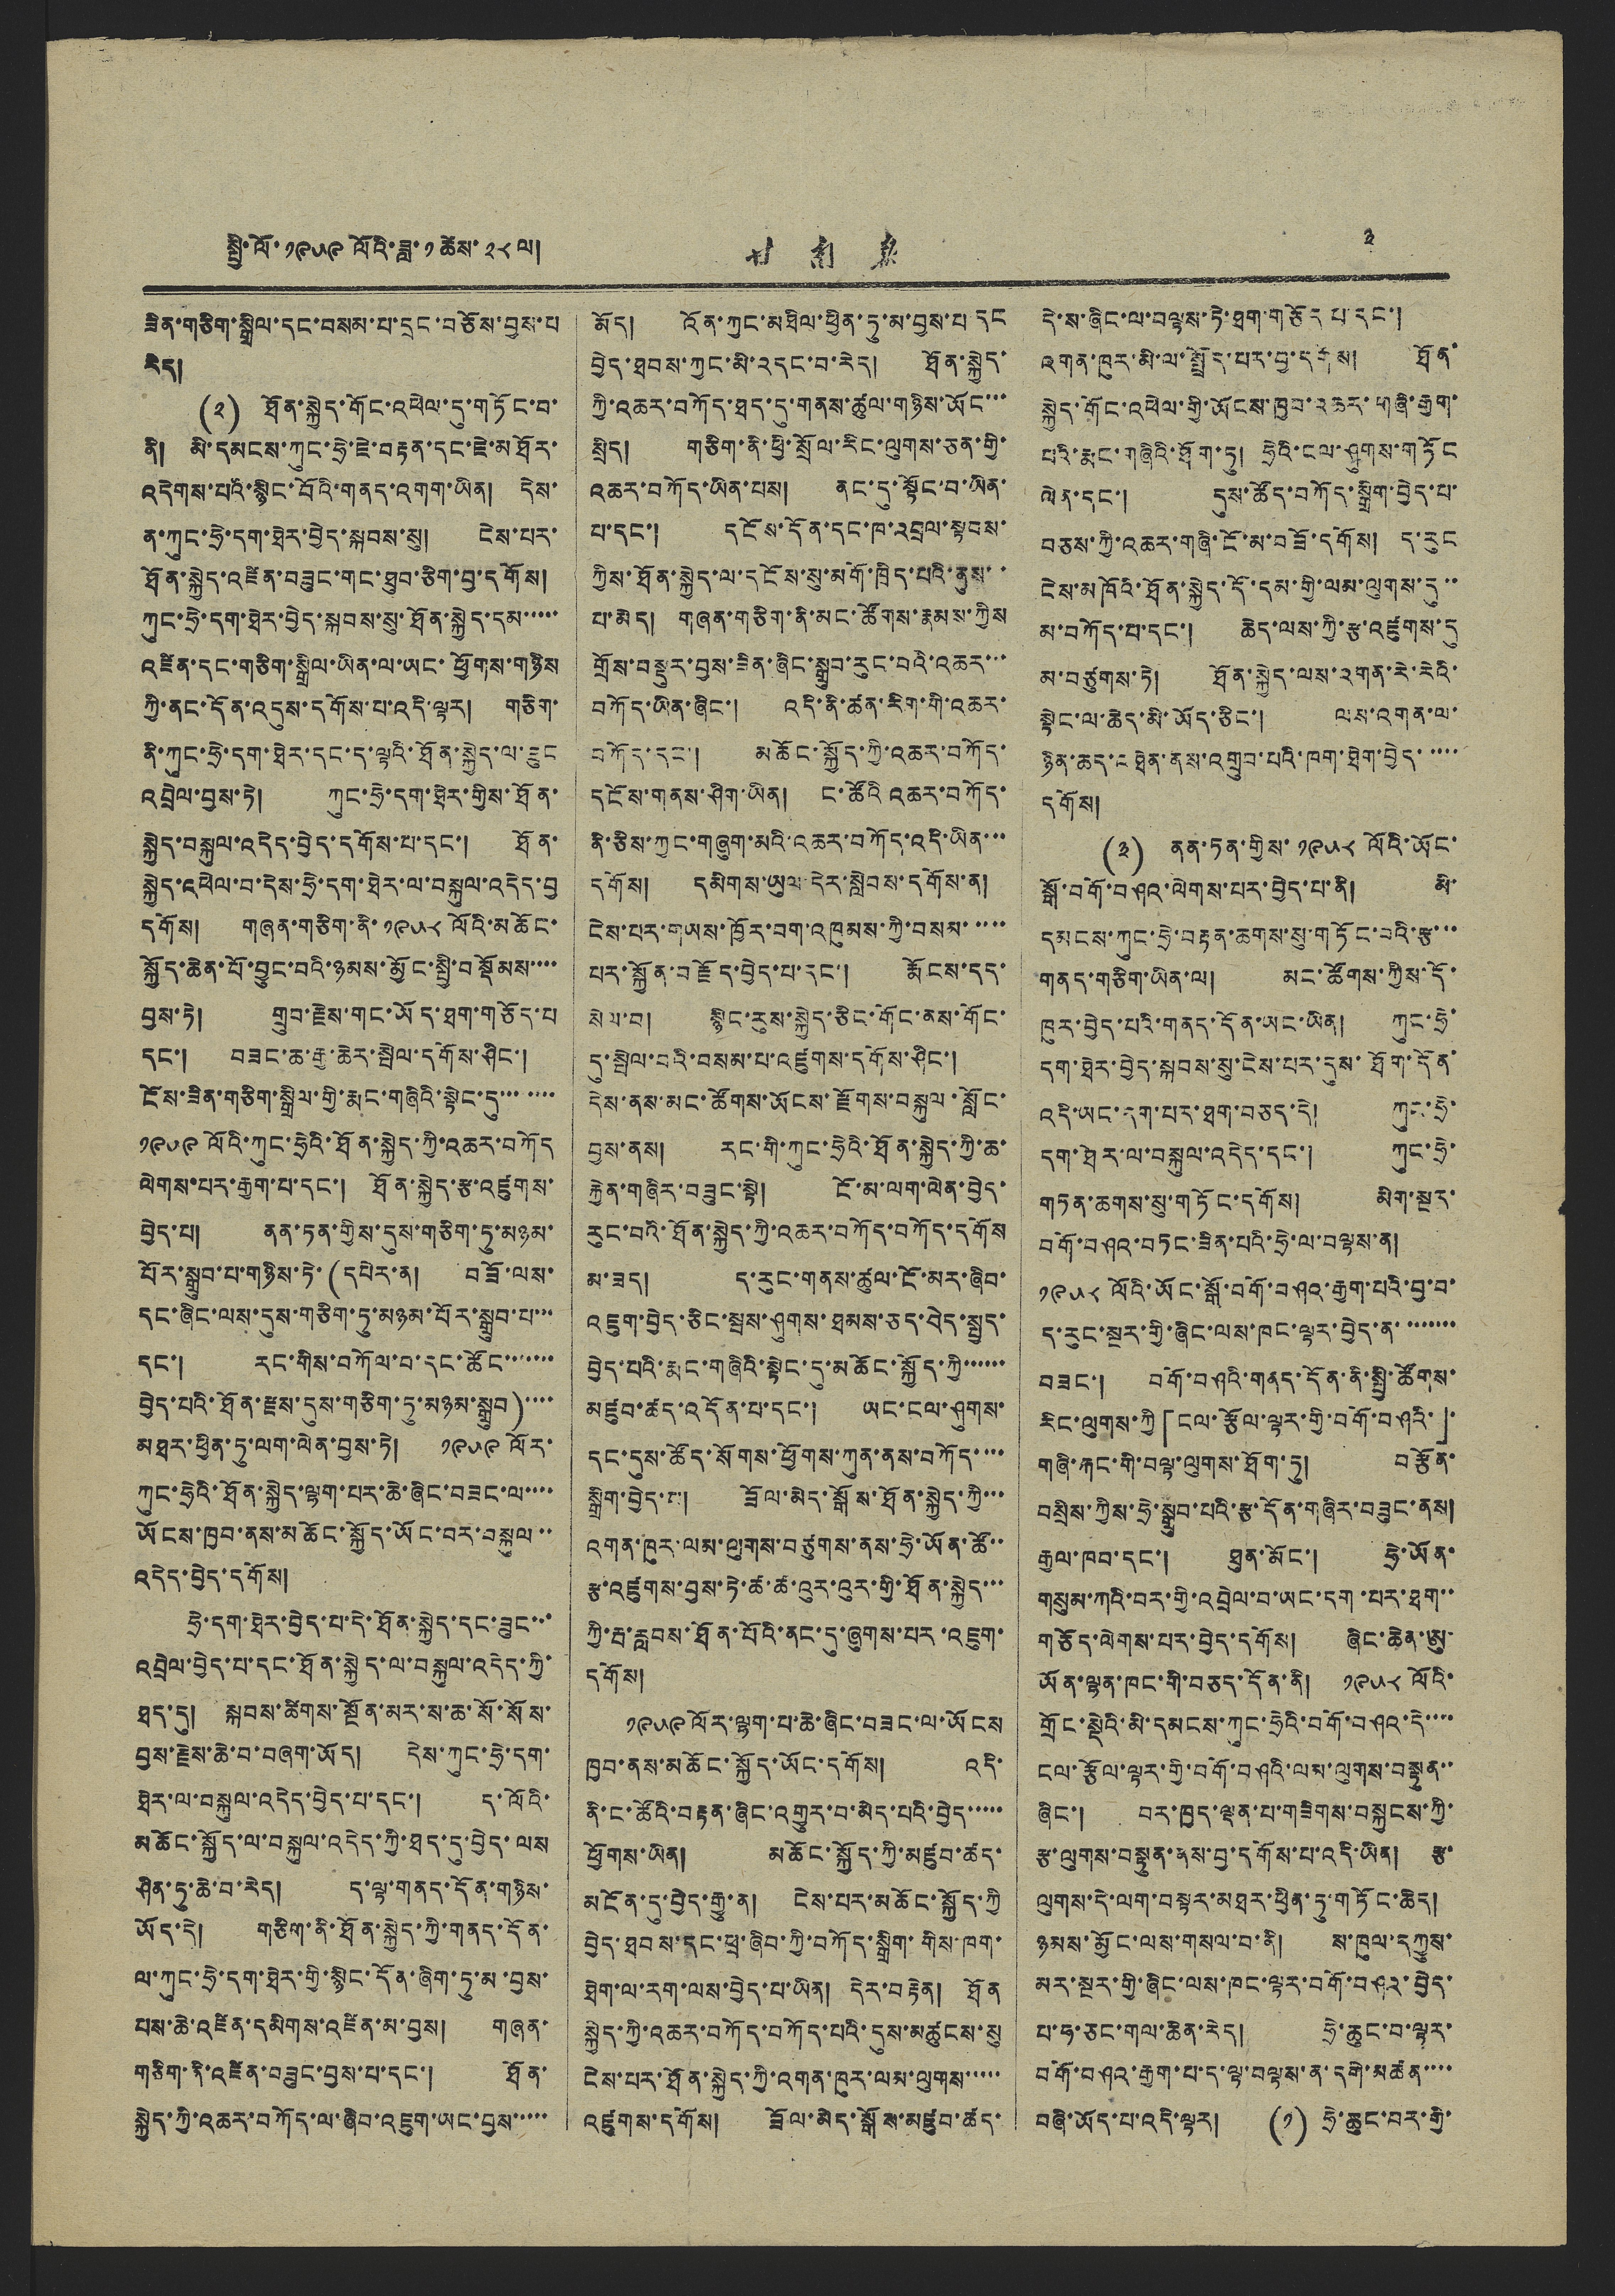སྤྱི་ལོ་ ༡༩༥༩ ལོའི་ཟླ་ ༡ ཚེས་ ༢༨ ལ། 甘 南 報 ༣
ཟིན་གཅིག་སྒྲིལ་དང་བསམ་པ་དྲང་བཅོས་བྱས་པ
རེད།
(༢) ཐོན་སྐྱེད་གོང་འཕེལ་དུ་གཏོང་བ་
ནི། མི་དམངས་ཀུང་ཧྲེ་ཇེ་བརྟན་དང་ཇེ་མཐོར་
འདེགས་པའི་སྙིང་བོའི་གནད་འགག་ཡིན། དེས་
ན་ཀུང་ཧྲེ་དག་ཐེར་བྱེད་སྐབས་སུ། ངེས་པར་
ཐོན་སྐྱེད་འཛིན་བཟུང་གང་ཐུབ་ཅིག་བྱ་དགོས།
ཀུང་ཧྲེ་དག་ཐེར་བྱེད་སྐབས་སུ་ཐོན་སྐྱེད་དམ་་་་་
འཛིན་དང་གཅིག་སྒྲིལ་ཡིན་ལ་ཡང་ཕྱོགས་གཉིས
ཀྱི་ནང་དོན་འདུས་དགོས་པ་འདི་ལྟར། གཅིག་
ནི་ཀུང་ཧྲེ་དག་ཐེར་དང་ད་ལྟའི་ཐོན་སྐྱེད་ལ་ཟུང
འབྲེལ་བྱས་ཏེ། ཀུང་ཧྲེ་དག་ཐེར་གྱིས་ཐོན་
སྐྱེད་བསྐུལ་འདེད་བྱེད་དགོས་པ་དང་། ཐོན་
སྐྱེད་འཕེལ་བ་དེས་ཧྲེ་དག་ཐེར་ལ་བསྐུལ་འདེད་བྱ
དགོས། གཞན་གཅིག་ནི་ ༡༩༥༨ ལོའི་མཆོང་
སྐྱོད་ཆེན་པོ་བྱུང་བའི་ཉམས་མྱོང་སྤྱི་བསྡོམས་་་་
བྱས་ཏེ། གྲུབ་རྗེས་གང་ཡོད་ཐག་གཅོད་པ
དང་། བཟང་ཆ་རྒྱ་ཆེར་སྤེལ་དགོས་ཤིང་།
ངོས་ཟིན་གཅིག་སྒྲིལ་གྱི་རྨང་གཞིའི་སྟེང་དུ་་་་་་་
༡༩༥༩ ལོའི་ཀུང་ཧྲེའི་ཐོན་སྐྱེད་ཀྱི་འཆར་བཀོད
ལེགས་པར་རྒྱག་པ་དང་། ཐོན་སྐྱེད་རྩ་འཛུགས་
བྱེད་པ། ནན་ཏན་གྱིས་དུས་གཅིག་ཏུ་མཉམ་
པོར་སྒྲུབ་པ་གཉིས་ཏེ་(དཔེར་ན། བཟོ་ལས་
དང་ཞིང་ལས་དུས་གཅིག་ཏུ་མཉམ་པོར་སྒྲུབ་པ་་་
དང་། རང་གིས་བཀོལ་བ་དང་ཚོང་་་་་་་
བྱེད་པའི་ཐོན་རྫས་དུས་གཅིག་ཏུ་མཉམ་སྒྲུབ)་་་་
མཐར་ཕྱིན་ཏུ་ལག་ལེན་བྱས་ཏེ། ༡༩༥༩ ལོར་
ཀུང་ཧྲེའི་ཐོན་སྐྱེད་ལྷག་པར་ཆེ་ཞིང་བཟང་ལ་་་་
ཡོངས་ཁྱབ་ནས་མཆོང་སྐྱེད་ཡོང་བར་བསྐུལ་་
འདེད་བྱེད་དགོས།
ཧྲེ་དག་ཐེར་བྱེད་པ་དེ་ཐོན་སྐྱེད་དང་ཟུང་་་
འབྲེལ་བྱེད་པ་དང་ཐོན་སྐྱེད་ལ་བསྐུལ་འདེད་ཀྱི་
ཐད་དུ། སྐབས་ཚིགས་སྔོན་མར་ས་ཆ་སོ་སོས་
བྱས་རྗེས་ཆེ་བ་བཞག་ཡོད། དེས་ཀུང་ཧྲེ་དག་
ཐེར་ལ་བསྐུལ་འདེད་བྱེད་པ་དང་། ད་ལོའི་
མཆོང་སྐྱོད་ལ་བསྐུལ་འདེད་ཀྱི་ཐད་དུ་བྱེད་ལས
ཤིན་ཏུ་ཆེ་བ་རེད། ད་ལྟ་གནད་དོན་གཉིས་
ཡོད་དེ། གཅིག་ནི་ཐོན་སྐྱེད་ཀྱི་གནད་དོན་
ལ་ཀུང་ཧྲེ་དག་ཐེར་གྱི་སྙིང་དོན་ཞིག་ཏུ་མ་བྱས་
པས་ཆེ་འཛིན་དམིགས་འཛིན་མ་བྱས། གཞན་
གཅིག་ནི་འཛིན་བཟུང་བྱས་པ་དང་། ཐོན་
སྐྱེད་ཀྱི་འཆར་བཀོད་ལ་ཞིབ་འཇུག་ཡང་བྱས་་་་་
མོད། འོན་ཀྱང་མཐིལ་ཕྱིན་ཏུ་མ་བྱས་པ དང
བྱེད་ཐབས་ཀྱང་མི་འདང་བ་རེད། ཐོན་སྐྱེད་
ཀྱི་འཆར་བཀོད་ཐད་དུ་གནས་ཚུལ་གཉིས་ཡོང་་་
སྲིད། གཅིག་ནི་ཕྱི་སྲོལ་རིང་ལུགས་ཅན་གྱི་
འཆར་བཀོད་ཡིན་པས། ནང་དུ་སྟོང་བ་ཡིན་
པ་དང་། དངོས་དོན་དང་ཁ་འབྲལ་སྟབས་
ཀྱིས་ཐོན་སྐྱེད་ལ་དངོས་སུ་མགོ་ཁྲིད་པའི་ནུས་་
པ་མེད། གཞན་གཅིག་ནི་མང་ཚོགས་རྣམས་ཀྱིས
གྲོས་བསྡུར་བྱས་ཟིན་ཞིང་སྒྲུབ་རུང་བའི་འཆར་་་
བཀོད་ཡིན་ཞིང་། འདི་ནི་ཚན་རིག་གི་འཆར་
བཀོད་དང་། མཆོང་སྐྱོད་ཀྱི་འཆར་བཀོད་
དངོས་གནས་ཤིག་ཡིན། ང་ཚོའི འཆར་བཀོད་
ནི་ཅིས་ཀྱང་གཞུག་མའི་འཆར་བཀོད་འདི་ཡིན་་་
དགོས། དམིགས་ཡུལ་དེར་སླེབས་དགོས་ན།
ངེས་པར་གཡས་ཁྱོར་བག་འཁུམས་ཀྱི་བསམ་་་་་
པར་སྐྱོན་བརྗོད་བྱེད་པ་དང་། རྨོངས་དད་
སེལ་བ། སྙིང་རུས་སྐྱེད་ཅིང་གོང་ནས་གོང་
དུ་སྤེལ་བའི་བསམ་པ་འཛུགས་དགོས་ཤིང་།
དེས་ནས་མང་ཚོགས་ཡོངས་རྫོགས་བསྐུལ་སློང་
བྱས་ནས། རང་གི་ཀུང་ཧྲེའི་ཐོན་སྐྱེད་ཀྱི་ཆ་
རྐྱེན་གཞིར་བཟུང་སྟེ། ངོ་མ་ལག་ལེན་བྱེད་
རུང་བའི་ཐོན་སྐྱེད་ཀྱི་འཆར་བཀོད་བཀོད་དགོས
མ་ཟད། ད་རུང་གནས་ཚུལ་ངོ་མར་ཞིབ་
འཇུག་བྱེད་ཅིང་སྦས་ཤུགས་ཐམས་ཅད་བེད་སྤྱད་
བྱེད་པའི་རྨང་གཞིའི་སྟེང་དུ་མཆོང་སྐྱོད་ཀྱི་་་་་་
མཛུབ་ཚད་འདོན་པ་དང་། ཡང་ངལ་ཤུགས་
དང་དུས་ཚོད་སོགས་ཕྱོགས་ཀུན་ནས་བཀོད་་་་
སྒྲིག་བྱེད་པ། ཟོལ་མེད་སྒོས་ཐོན་སྐྱེད་ཀྱི་་་
འགན་ཁུར་ལམ་ལུགས་བཙུགས་ནས་ཧྲེ་ཡོན་ཚོ་་
རྩ་འཛུགས་བྱས་ཏེ་ཚ་ཚ་འུར་འུར་གྱི་ཐོན་སྐྱེད་་་
ཀྱི་རྦ་རླབས་ཐོན་པོའི་ནང་དུ་ཞུགས་པར་འཇུག་
དགོས།
༡༩༥༩ ལོར་ལྷག་པ་ཆེ་ཞིང་བཟང་ལ་ཡོངས
ཁྱབ་ནས་མཆོང་སྐྱོད་ཡོང་དགོས། འདི་
ནི་ང་ཚོའི་བརྟན་ཞིང་འགྱུར་བ་མིད་པའི་བྱེད་་་་་
ཕྱོགས་ཡིན། མཆོང་སྐྱོད་ཀྱི་མཛུབ་ཚད་
མངོན་དུ་བྱེད་རྒྱུ་ན། ངེས་པར་མཆོང་སྐྱོད་ཀྱི
བྱེད་ཐབས་དང་ཕྲ་ཞིབ་ཀྱི་བཀོད་སྒྲིག་གིས་ཁག་
ཐེག་ལ་རག་ལས་བྱེད་པ་ཡིན། དེར་བརྟེན། ཐོན
སྐྱེད་ཀྱི་འཆར་བཀོད་བཀོད་པའི་དུས་མཚུངས་སུ
ངེས་པར་ཐོན་སྐྱེད་ཀྱི་འགན་ཁུར་ལམ་ལུགས་་་་་
འཛུགས་དགོས། ཟོལ་མེད་སྒོས་མཛུབ་ཚད་
དེ་ས་ཞིང་ལ་བལྟས་ཏེ་ཐག་གཅོད་པ་དང་།
འགན་ཁུར་མི་ལ་སྤྲོད་པར་བྱ་དགོས། ཐོན་
སྐྱེད་གོང་འཕེལ་གྱི་ཡོངས་ཁྱབ་འཆར་གཞི་རྒྱག་
པའི་རྨང་གཞིའི་ཐོག་ཏུ། ཧྲེའི་ངལ་ཤུགས་གཏོང
ལེན་དང་། དུས་ཚོད་བཀོད་སྒྲིག་བྱེད་པ་
བཅས་ཀྱི་འཆར་གཞི་ངོ་མ་བཟོ་དགོས། ད་རུང
ངེས་མཁོའི་ཐོན་སྐྱེད་དོ་དམ་གྱི་ལམ་ལུགས་དུ་་
མ་བཀོད་པ་དང་། ཆེད་ལས་ཀྱི་རྩ་འཛུགས་དུ
མ་བཙུགས་ཏེ། ཐོན་སྐྱེད་ལས་འགན་རེ་རེའི་
སྟེང་ལ་ཆེད་མི་ཡོད་ཅིང་། ལས་འགན་ལ་
ཉིན་ཆད་འཐེན་ནས་འགྲུབ་པའི་ཁག་ཐེག་བྱེད་་་་་
དགོས།
(༣) ནན་ཏན་གྱིས་ ༡༩༥༨ ལོའི་ཡོང་
སྒོ་བགོ་བཤའ་ལེགས་པར་བྱེད་པ་ནི། མི་
དམངས་ཀུང་ཧྲེ་བརྟན་ཆགས་སུ་གཏོང་བའི་རྩ་་་
གནད་གཅིག་ཡིན་ལ། མང་ཚོགས་ཀྱིས་དོ་
ཁུར་བྱེད་པའི་གནད་དོན་ཡང་ཡིན། ཀུང་ཧྲེ་
དག་ཐེར་བྱེད་སྐབས་སུ་ངེས་པར་དུས་ཐོག་དོན་
འདི་ཡང་དག་པར་ཐག་བཅད་དེ། ཀུང་ཧྲེ་
དག་ཐེར་ལ་བསྐུལ་འདེད་དང་། ཀུང་ཧྲེ་
གཏན་ཆགས་སུ་གཏོང་དགོས། མིག་སྔར་
བགོ་བཤའ་བཏང་ཟིན་པའི་ཧྲེ་ལ་བལྟས་ན།
༡༩༥༨ ལོའི་ཡོང་སྒོ་བགོ་བཤའ་རྒྱག་པའི་བྱ་བ་
ད་རུང་སྔར་གྱི་ཞིང་ལས་ཁང་ལྟར་བྱེད་ན་་་་་་་་
བཟང་། བགོ་བཤའི་གནད་དོན་ནི་སྤྱི་ཚོགས་
རིང་ལུགས་ཀྱི「ངལ་རྩོལ་ལྟར་གྱི་བགོ་བཤའི་」
གཞི་རྐང་གི་བལྟ་ལུགས་ཐོག་ཏུ། བརྩོན་
བསྲིས་ཀྱིས་ཧྲེ་སྒྲུབ་པའི་རྩ་དོན་གཞིར་བཟུང་ནས།
རྒྱལ་ཁབ་དང་། ཐུན་མོང་། ཧྲེ་ཡོན་
གསུམ་ཀའི་བར་གྱི་འབྲེལ་བ་ཡང་དག་པར་ཐག་་
གཅོད་ལེགས་པར་བྱེད་དགོས། ཞིང་ཆེན་ཨུ་
ཡོན་ལྷན་ཁང་གི་བཅད་དོན་ནི། ༡༩༥༨ ལོའི་
གྲོང་སྡེའི་མི་དམངས་ཀུང་ཧྲེའི་བགོ་བཤའ་དེ་་་་
ངལ་རྩོལ་ལྟར་གྱི་བགོ་བཤའི་ལམ་ལུགས་བསྟུན་་
ཞིང་། བར་ཁྱད་ལྡན་པ་གཟིགས་བསྐྱངས་ཀྱི་
རྩ་ལུགས་བསྟུན་ནས་བྱ་དགོས་པ་འདི་ཡིན། རྩ་
ལུགས་དེ་ལག་བསྟར་མཐར་ཕྱིན་ཏུ་གཏོང་ཆེད།
ཉམས་མྱོང་ལས་གསལ་བ་ནི། ས་ཁུལ་དཀྱུས་
མར་སྔར་གྱི་ཞིང་ལས་ཁང་ལྟར་བགོ་བཤའ་བྱེད་
པ་ཧ་ཅང་གལ་ཆེན་རེད། ཧྲེ་ཆུང་བ་ལྟར་
བགོ་བཤའ་རྒྱག་པ་ད་ལྟ་བལྟས་ན་དགེ་མཚན་་་་
བཞི་ཡོད་པ་འདི་ལྟར། (༡) ཧྲེ་ཆུང་བར་གྱི་
